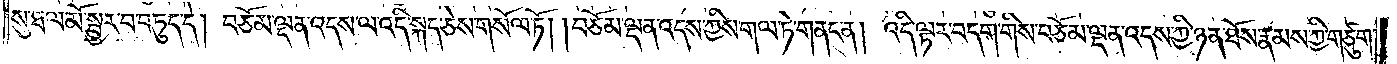སུ་ཐལ་མོ་སྦྱར་བ་བཏུད་དེ། བཅོམ་ལྡན་འདས་ལ་འདི་སྐད་ཅེས་གསོལ་ཏོ། །བཅོམ་ལྡན་འདས་ཀྱིས་གལ་ཏེ་གནང་ན། འདི་ལྟར་བདག་གིས་བཅོམ་ལྡན་འདས་ཀྱི་ཉན་ཐོས་རྣམས་ཀྱི་གཙུག་
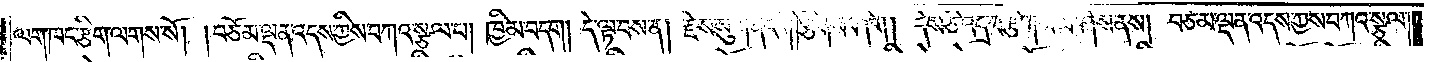ལག་ཁང་རྩིག་ལགས་སོ། །བཅོམ་ལྡན་འདས་ཀྱིས་བཀའ་སྩལ་པ། ཁྱིམ་བདག། དེ་ལྟ་བས་ན། རྗེས་སུ་གནང་གི། རྩིགས་ཤིག། དེས་ཅི་འདྲ་བ་རྩིག་པ་མ་ཤེས་ནས། བཅོམ་ལྡན་འདས་ཀྱིས་བཀའ་སྩལ་
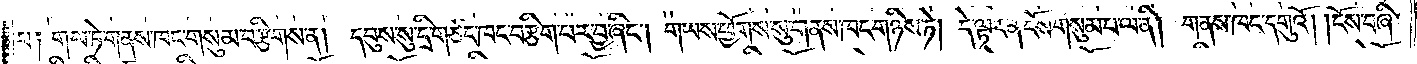པ༑ གལ་ཏེ་གནས་ཁང་གསུམ་བརྩིགས་ན། དབུས་སུ་དྲི་གཙང་ཁང་བརྩིག་པར་བྱ་ཞིང༌། གཡས་ཕྱོགས་སུ་གནས་ཁང་གཉིས་ཏེ། དེ་ལྟར་ན་ངོས་གསུམ་པ་ལ་ནི། གནས་ཁང་དགུའོ། །ངོས་བཞི་
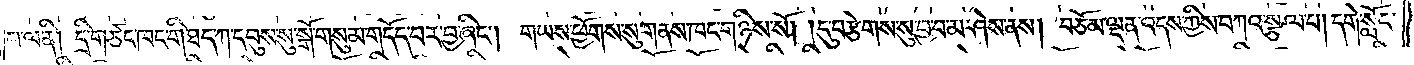པ་ལ་ནི། དྲི་གཙང་ཁང་གི་ཐད་ཀ་དབུས་སུ་སྒོ་གསུམ་གདོད་པར་བྱ་ཞིང༌། གཡས་ཕྱོགས་སུ་གནས་ཁང་གཉིས་སོ། །དུ་བརྩེགས་སུ་བྱ་བ་མ་ཤེས་ནས། བཅོམ་ལྡན་འདས་ཀྱིས་བཀའ་སྩལ་པ། དགེ་སློང་
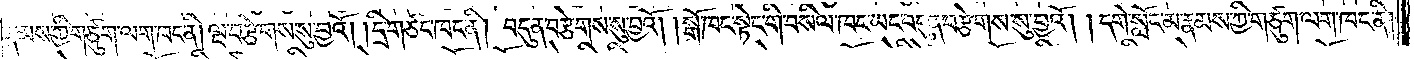རྣམས་ཀྱི་གཙུག་ལག་ཁང་ནི། ལྔ་བརྩེགས་སུ་བྱའོ། །དྲི་གཙང་ཁང་ནི། བདུན་བརྩེགས་སུ་བྱའོ། །སྒོ་ཁང་སྟེང་གི་བསིལ་ཁང་ཡང་བདུན་བརྩེགས་སུ་བྱའོ། །དགེ་སློང་མ་རྣམས་ཀྱི་གཙུག་ལག་ཁང་ནི།
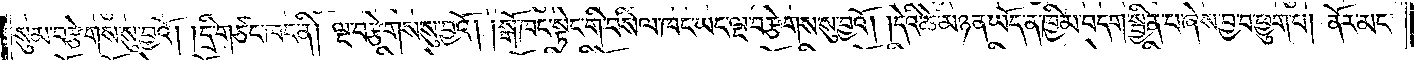སུམ་བརྩེགས་སུ་བྱའོ། །དྲི་གཙང་ཁང་ནི། ལྔ་བརྩེགས་སུ་བྱའོ། །སྒོ་ཁང་སྟེང་གི་བསིལ་ཁང་ཡང་ལྔ་བརྩེགས་སུ་བྱའོ། །དེའི་ཚེ་མཉན་ཡོད་ན་ཁྱིམ་བདག་སྦྱིན་པ་ཞེས་བྱ་བ་ཕྱུག་པ། ནོར་མང་
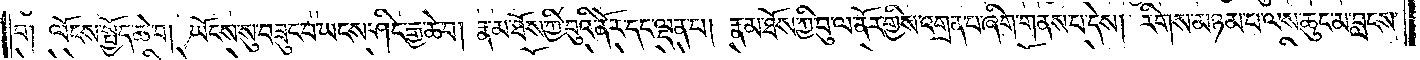བ། ལོངས་སྤྱོད་ཆེ་བ། ཡོངས་སུ་བཟུང་བ་ཡངས་ཤིང་རྒྱ་ཆེ་བ། རྣམ་ཐོས་ཀྱི་བུའི་ནོར་དང་ལྡན་པ། རྣམ་ཐོས་ཀྱི་བུ་ལ་ནོར་གྱིས་འགྲན་པ་ཞིག་གནས་པ་དེས། རིགས་མཉམ་པ་ལས་ཆུང་མ་བླངས་
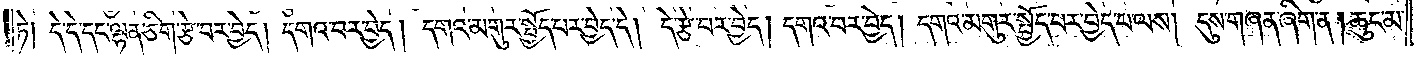ཏེ། དེ་དེ་དང་ལྷན་ཅིག་རྩེ་བར་བྱེད། དགའ་བར་བྱེད། དགའ་མགུར་སྤྱོད་པར་བྱེད་དེ། དེ་རྩེ་བར་བྱེད། དགའ་བར་བྱེད། དགའ་མགུར་སྤྱོད་པར་བྱེད་པ་ལས། དུས་གཞན་ཞིག་ན། ཆུང་མ་
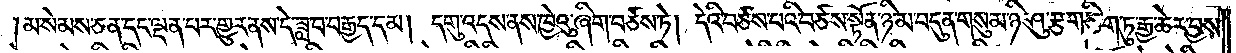མ་སེམས་ཅན་དང་ལྡན་པར་གྱུར་ནས་དེ་ཟླ་བ་བརྒྱད་དམ། དགུ་འདས་ནས་ཁྱེའུ་ཞིག་བཙས་ཏེ། དེའི་བཙས་པའི་བཙས་སྟོན་ཉི་མ་བདུན་གསུམ་ཉི་ཤུ་རྩ་གཅིག་ཏུ་རྒྱ་ཆེར་བྱས་
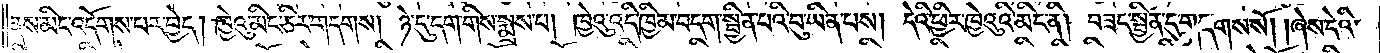ནས་མིང་འདོགས་པར་བྱེད། ཁྱེའུ་མིང་ཅིར་གདགས། ཉེ་དུ་དག་གིས་སྨྲས་པ། ཁྱེའུ་འདི་ཁྱིམ་བདག་སྦྱིན་པའི་བུ་ཡིན་པས། དེའི་ཕྱིར་ཁྱེའུའི་མིང་ནི། བཟང་སྦྱིན་དུ་གདགས་སོ། །ཞེས་དེའི་
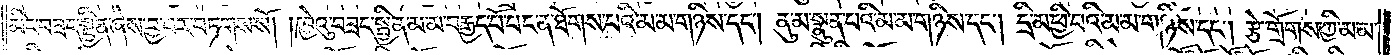མིང་བཟང་སྦྱིན་ཞེས་བྱ་བར་བཏགས་སོ། །ཁྱེའུ་བཟང་སྦྱིན་མ་མ་བརྒྱད་པོ་པང་ན་ཐོགས་པའི་མ་མ་གཉིས་དང༌། ནུ་མ་སྣུན་པའི་མ་མ་གཉིས་དང༌། དྲི་མ་ཕྱི་བའི་མ་མ་གཉིས་དང༌། རྩེ་གྲོགས་ཀྱི་མ་མ་
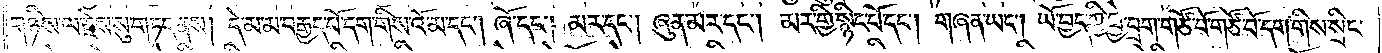གཉིས་ལ་རྗེས་སུ་གཏད་ནས། དེ་མ་མ་བརྒྱད་པོ་དག་གིས་འོ་མ་དང༌། ཞོ་དང༌། མར་དང༌། ཞུན་མར་དང༌། མར་གྱི་སྙིང་པོ་དང༌། གཞན་ཡང༌། ཡོ་བྱད་ཀྱི་བྱེ་བྲག་གཙོ་བོ་གཙོ་བོ་དག་གིས་སྲིང་
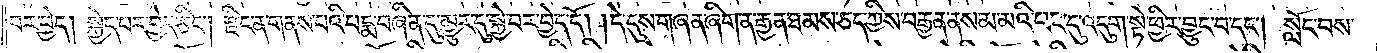བར་བྱེད། སྐྱེད་པར་བྱེད་ཅིང༌། རྫིང་ན་གནས་པའི་པདྨ་བཞིན་དུ་མྱུར་དུ་སྐྱེ་བར་བྱེད་དོ། །དེ་དུས་གཞན་ཞིག་ན་རྒྱན་ཐམས་ཅད་ཀྱིས་བརྒྱན་ནས་མ་མའི་པང་དུ་འདུག་སྟེ་ཕྱིར་བྱུང་བ་དང༌། སློང་བས་
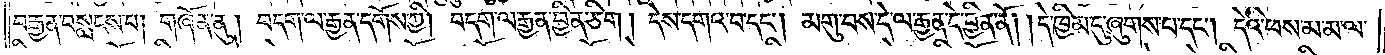བརྒྱན་བསླངས་པ། གཞོན་ནུ། བདག་ལ་རྒྱན་དགོས་ཀྱི། བདག་ལ་རྒྱན་བྱིན་ཅིག། དེས་དགའ་བ་དང༌། མགུ་བས་དེ་ལ་རྒྱན་དེ་བྱིན་ནོ། །དེ་ཁྱིམ་དུ་ཞུགས་པ་དང༌། དེའི་ཕས་མ་མ་ལ་
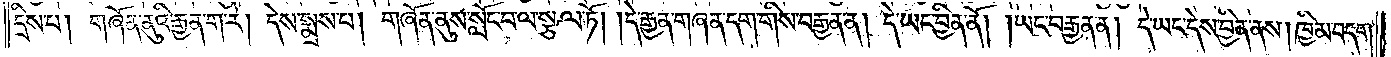དྲིས་པ། གཞོན་ནུའི་རྒྱན་ག་རེ། དེས་སྨྲས་པ། གཞོན་ནུས་སློང་བ་ལ་སྩལ་ཏོ། །དེ་རྒྱན་གཞན་དག་གིས་བརྒྱན་ན། དེ་ཡང་བྱིན་ནོ། །ཡང་བརྒྱན་ན། དེ་ཡང་དེས་བྱིན་ནས། ཁྱིམ་བདག་
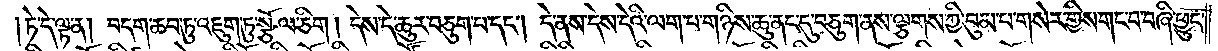ཏེ་དེ་ལྟ་ན། བདག་ཆབ་ཏུ་འཇུག་ཏུ་སྩོལ་ཅིག །དེས་དེ་ཆུར་བཅུག་པ་དང༌། དེ་ནས་དེས་དེའི་ལག་པ་གཉིས་ཆུ་ནང་དུ་བཅུག་ནས་ལྕགས་ཀྱི་བུམ་པ་གསེར་གྱིས་གང་བ་བཞི་ཕྱུང་
